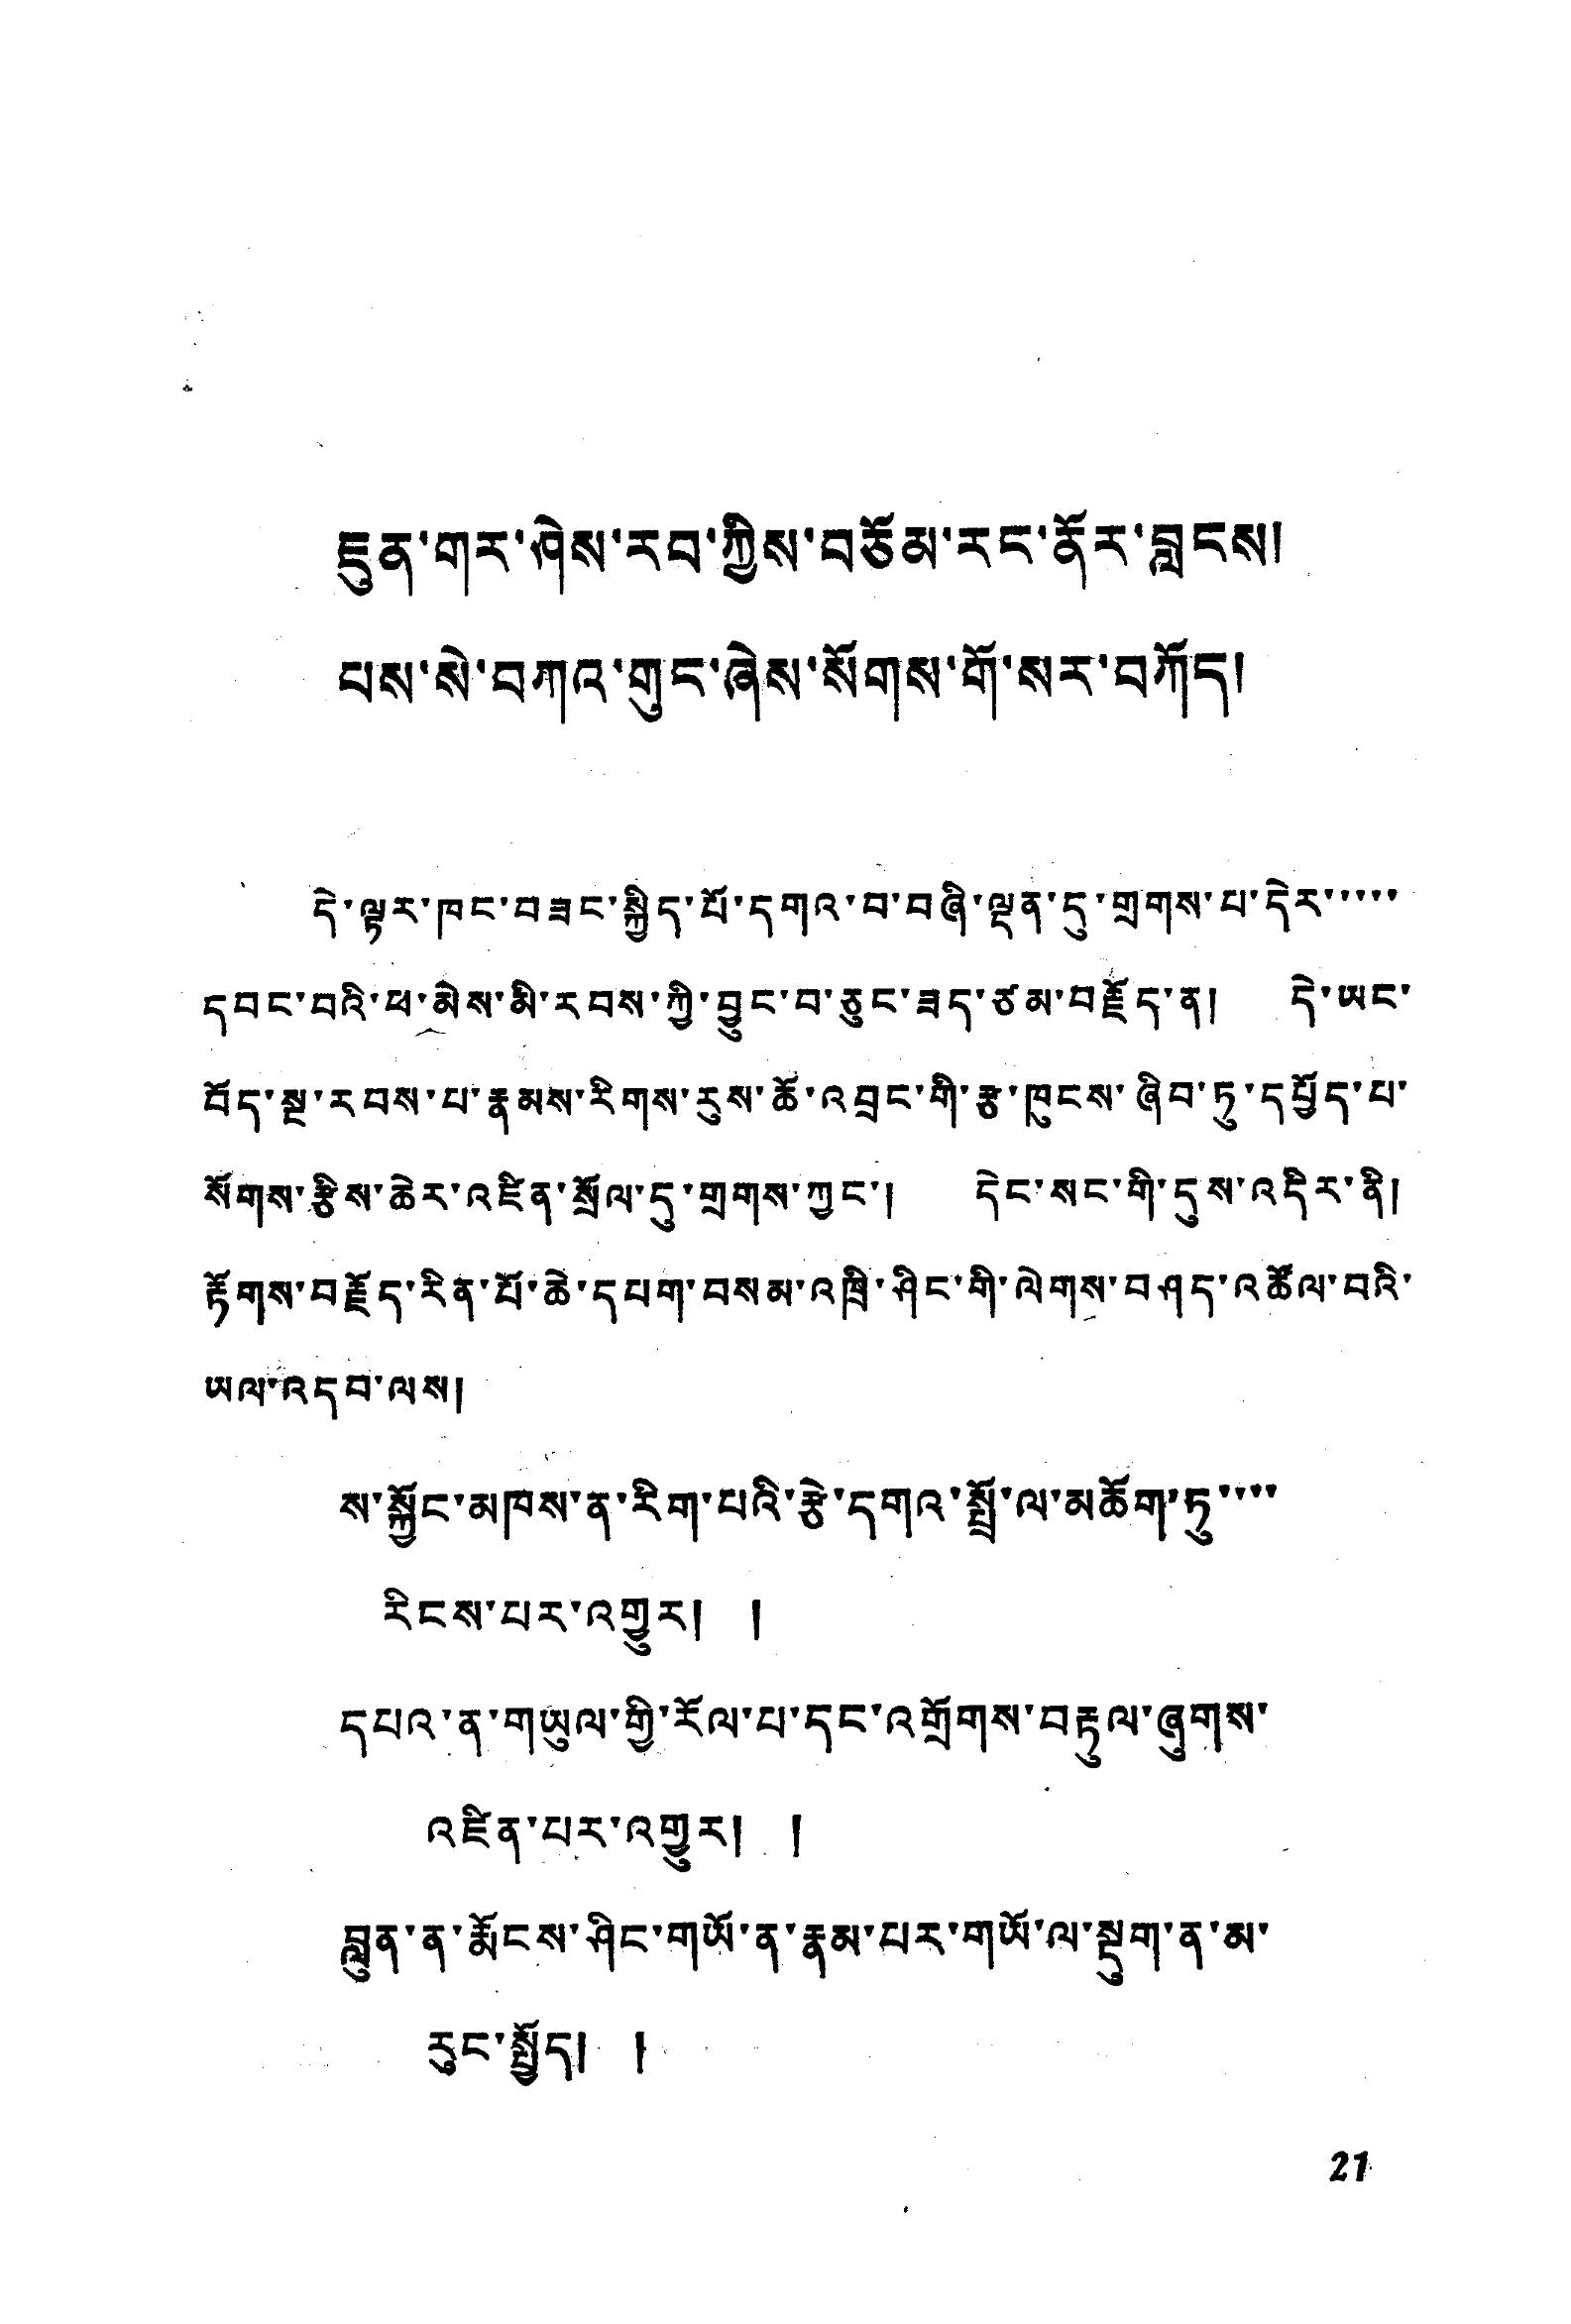ཇུན་གར་ཤེས་རབ་ཀྱིས་བཅོམ་རང་ནོར་བླངས།
པས་སེ་བཀའ་གུང་ཞེས་སོགས་གོ་སར་བཀོད།
དེ་ལྟར་ཁང་བཟང་སྐྱིད་པོ་དགའ་བ་བཞི་ལྡན་དུ་གྲགས་པ་དེར་་་་་
དབང་བའི་ཕ་མེས་མི་རབས་ཀྱི་བྱུང་བ་ཅུང་ཟད་ཙམ་བརྗོད་ན། དེ་ཡང་
བོད་སྔ་རབས་པ་རྣམས་རིགས་རུས་ཆོ་འབྲང་གི་རྩ་ཁུངས་ཞིབ་ཏུ་དཔྱོད་པ་
སོགས་རྩིས་ཆེར་འཛིན་སྲོལ་དུ་གྲགས་ཀྱང་། དེང་སང་གི་དུས་འདིར་ནི།
རྟོགས་བརྗོད་རིན་པོ་ཆེ་དཔག་བསམ་འཁྲི་ཤིང་གི་ལེགས་བཤད་འཚོལ་བའི་
ཡལ་འདབ་ལས།
ས་སྐྱོང་མཁས་ན་རིག་པའི་རྩེ་དགའ་སྤྲོ་ལ་མཆོག་ཏུ་་་་
རིངས་པར་འགྱུར། །
དཔའ་ན་གཡུལ་གྱི་རོལ་པ་དང་འགྲོགས་བརྟུལ་ཞུགས་
འཛིན་པར་འགྱུར། །
བླུན་ན་རྨོངས་ཤིང་གཡོ་ན་རྣམ་པར་གཡོ་ལ་སྡུག་ན་མ་
རུང་སྤྱོད། །
21
